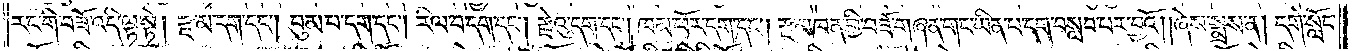རང་གི་བཟོ་འདི་ལྟ་སྟེ། རྫ་མ་དག་དང༌། བུམ་པ་དག་དང༌། རིལ་བ་དག་དང༌། རྫེའུ་དག་དང༌། ཁམ་ཕོར་དག་དང༌། རྫ་མཁན་གྱི་བཟོ་གཞན་གང་ཡིན་པ་དག་བསླབ་པར་བྱའོ། །ཞེས་སྨྲས་ན། དགེ་སློང་
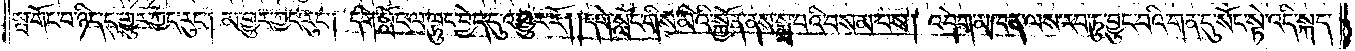སྤ་གོང་བ་ཉིད་དུ་གྱུར་ཀྱང་རུང༌། མ་གྱུར་ཀྱང་རུང༌། དགེ་སློང་ལ་ལྟུང་བྱེད་དུ་འགྱུར་རོ། །དགེ་སློང་གིས་མིའི་སྐྱོན་ནས་སྨྲ་བའི་བསམ་པས། འབྲེག་མཁན་ལས་རབ་ཏུ་བྱུང་བའི་གན་དུ་སོང་སྟེ་འདི་སྐད་
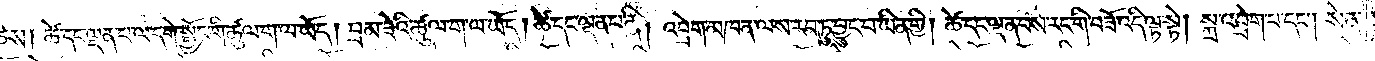ཅེས། ཚེ་དང་ལྡན་པ་ལ་དགེ་སྦྱོང་གི་ཚུལ་ག་ལ་ཡོད། བྲམ་ཟེའི་ཚུལ་ག་ལ་ཡོད། ཚེ་དང་ལྡན་པ་ནི། འབྲེག་མཁན་ལས་རབ་ཏུ་བྱུང་བ་ཡིན་གྱི། ཚེ་དང་ལྡན་པས་རང་གི་བཟོ་འདི་ལྟ་སྟེ། སྐྲ་འབྲེག་པ་དང༌། སེན་
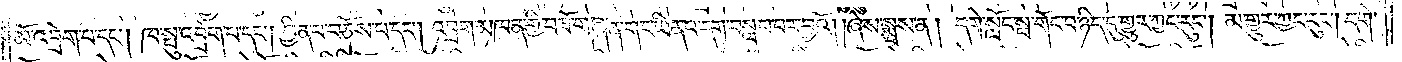མོ་འབྲེག་པ་དང༌། ཁ་སྤུ་འབྲེག་པ་དང༌། བྱིན་པ་བཅོས་པ་དང༌། འབྲེག་མཁན་གྱི་བཟོ་གཞན་གང་ཡིན་པ་དག་བསླབ་པར་བྱའོ། །ཞེས་སྨྲས་ན། དགེ་སློང་སྤ་གོང་བ་ཉིད་དུ་གྱུར་ཀྱང་རུང༌། མ་གྱུར་ཀྱང་རུང༌། དགེ་
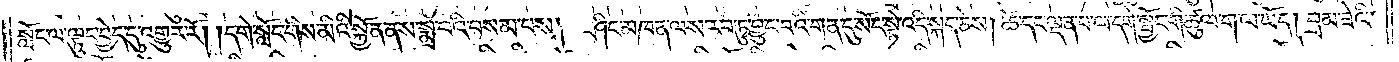སློང་ལ་ལྟུང་བྱེད་དུ་འགྱུར་རོ། །དགེ་སློང་གིས་མིའི་སྐྱོན་ནས་སྨྲ་བའི་བསམ་པས། ཤིང་མཁན་ལས་རབ་ཏུ་བྱུང་བའི་གན་དུ་སོང་སྟེ་འདི་སྐད་ཅེས། ཚེ་དང་ལྡན་པ་ལ་དགེ་སྦྱོང་གི་ཚུལ་ག་ལ་ཡོད། བྲམ་ཟེའི་
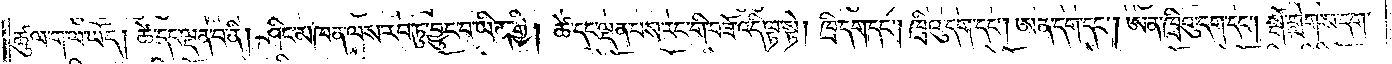ཚུལ་ག་ལ་ཡོད། ཚེ་དང་ལྡན་པ་ནི། ཤིང་མཁན་ལས་རབ་ཏུ་བྱུང་བ་ཡིན་གྱི། ཚེ་དང་ལྡན་པས་རང་གི་བཟོ་འདི་ལྟ་སྟེ། ཁྲི་དག་དང༌། ཁྲིའུ་དག་དང༌། ཨན་དག་དང༌། ཨན་ཁྲིའུ་དག་དང༌། སྒོ་གླེགས་དག་
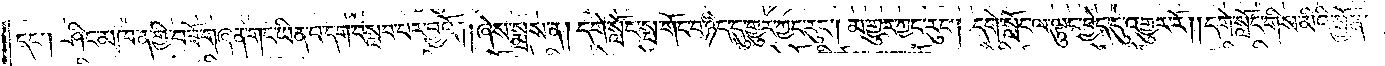དང༌། ཤིང་མཁན་གྱི་བཟོ་གཞན་གང་ཡིན་པ་དག་བསླབ་པར་བྱའོ། །ཞེས་སྨྲས་ན། དགེ་སློང་སྤ་གོང་བ་ཉིད་དུ་གྱུར་ཀྱང་རུང༌། མ་གྱུར་ཀྱང་རུང༌། དགེ་སློང་ལ་ལྟུང་བྱེད་དུ་འགྱུར་རོ། །དགེ་སློང་གིས་མིའི་སྐྱོན་
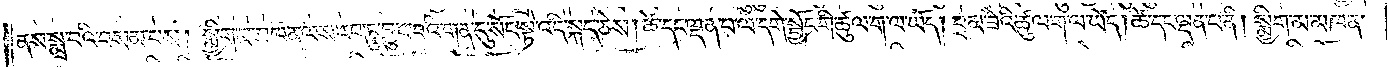ནས་སྨྲ་བའི་བསམ་པས། སྨྱིག་མ་མཁན་ལས་རབ་ཏུ་བྱུང་བའི་གན་དུ་སོང་སྟ་འདི་སྐད་ཅེས། ཚེ་དང་ལྡན་པ་ལ་དགེ་སྦྱོང་གི་ཚུལ་ག་ལ་ཡོད། བྲམ་ཟེའི་ཚུལ་ག་ལ་ཡོད། ཚེ་དང་ལྡན་པ་ནི། སྨྱིག་མ་མཁན་
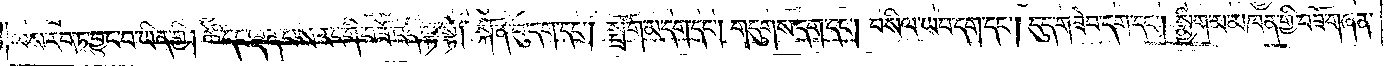ལས་རབ་ཏུ་བྱུང་བ་ཡིན་གྱི། ཚེ་དང་ལྡན་པས་རང་གི་བཟོ་འདི་ལྟ་སྟེ། སྐོན་བུ་དག་དང༌། སྤྲོག་མ་དག་དང༌། གདུགས་དག་དང༌། བསིལ་ཡབ་དག་དང༌། དུད་གཟེབ་དག་དང༌། སྨྱིག་མ་མཁན་གྱི་བཟོ་གཞན་
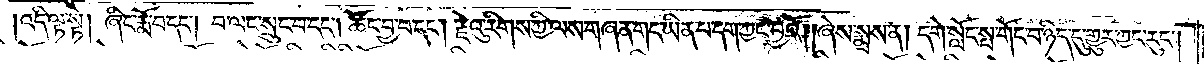འདི་ལྟ་སྟེ། ཞིང་རྨོ་བ་དང༌། བ་ལང་སྲུང་བ་དང༌། ཚོང་བྱ་བ་དང༌། རྗེའུ་རིགས་ཀྱི་ལས་གཞན་གང་ཡིན་པ་དག་ཀྱང་བྱའོ། །ཞེས་སྨྲས་ན། དགེ་སློང་སྤ་གོང་བ་ཉིད་དུ་གྱུར་ཀྱང་རུང༌།
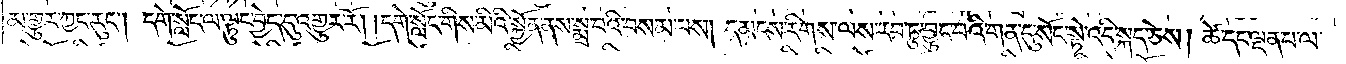མ་གྱུར་ཀྱང་རུང༌། དགེ་སློང་ལ་ལྟུང་བྱེད་དུ་འགྱུར་རོ། །དགེ་སློང་གིས་མིའི་སྐྱོན་ནས་སྨྲ་བའི་བསམ་པས། དམངས་རིགས་ལས་རབ་ཏུ་བྱུང་བའི་གན་དུ་སོང་སྟེ་འདི་སྐད་ཅེས། ཚེ་དང་ལྡན་པ་ལ་
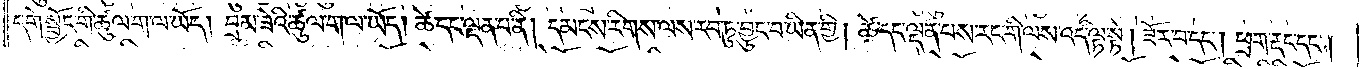དགེ་སྦྱོང་གི་ཚུལ་ག་ལ་ཡོད། བྲམ་ཟེའི་ཚུལ་ག་ལ་ཡོད། ཚེ་དང་ལྡན་པ་ནི། དམངས་རིགས་ལས་རབ་ཏུ་བྱུང་བ་ཡིན་གྱི། ཚེ་དང་ལྡན་པས་རང་གི་ལས་འདི་ལྟ་སྟེ། ཟོར་བ་དང༌། ཕྲག་རྡང་དང༌།
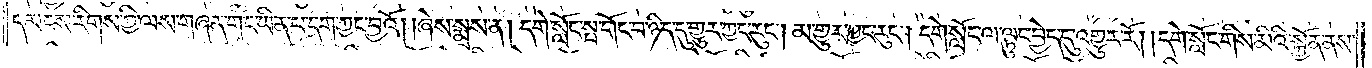དམངས་རིགས་ཀྱི་ལས་གཞན་གང་ཡིན་པ་དག་ཀྱང་བྱའོ། །ཞེས་སྨྲས་ན། དགེ་སློང་སྤ་གོང་བ་ཉིད་དུ་གྱུར་ཀྱང་རུང༌། མ་གྱུར་ཀྱང་རུང༌། དགེ་སློང་ལ་ལྟུང་བྱེད་དུ་འགྱུར་རོ། །དགེ་སློང་གིས་མིའི་སྐྱོན་ནས་
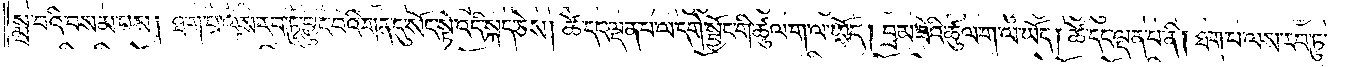སྨྲ་བའི་བསམ་པས། ཐ་ག་པ་ལས་རབ་ཏུ་བྱུང་བའི་གན་དུ་སོང་སྟེ་འདི་སྐད་ཅེས། ཚེ་དང་ལྡན་པ་ལ་དགེ་སྦྱོང་གི་ཚུལ་ག་ལ་ཡོད། བྲམ་ཟེའི་ཚུལ་ག་ལ་ཡོད། ཚེ་དང་ལྡན་པ་ནི། ཐག་པ་ལས་རབ་ཏུ་
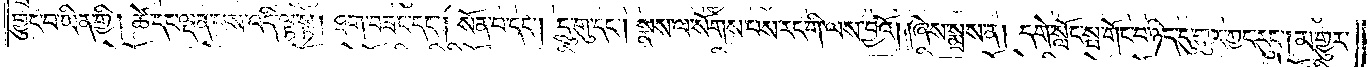བྱུང་བ་ཡིན་གྱི། ཚེ་དང་ལྡན་པས་འདི་ལྟ་སྟེ། ཐག་བཟང་དང༌། སོན་པ་དང༌། དྲུ་གུ་དང༌། སྣས་ལ་སོགས་པས་རང་གི་ལས་བྱའོ། །ཞེས་སྨྲས་ན། དགེ་སློང་སྤ་གོང་བ་ཉིད་དུ་གྱུར་ཀྱང་རུང༌། མ་གྱུར་
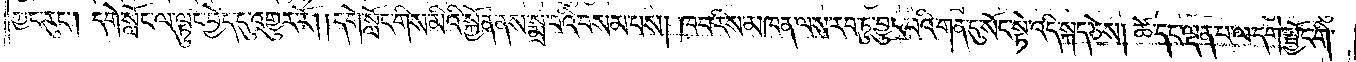ཀྱང་རུང༌། དགེ་སློང་ལ་ལྟུང་བྱེད་དུ་འགྱུར་རོ། །དགེ་སློང་གིས་མིའི་སྐྱོན་ནས་སྨྲ་བའི་བསམ་པས། ཁབ་རིས་མཁན་ལས་རབ་ཏུ་བྱུང་བའི་གན་དུ་སོང་སྟེ་འདི་སྐད་ཅེས། ཚེ་དང་ལྡན་པ་ལ་དགེ་སྦྱོང་གི་
